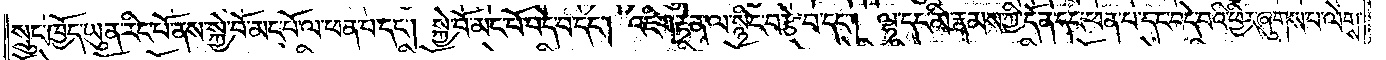སྲུང་ཁྱོད་ཡུན་རིང་པོ་ནས་སྐྱེ་བོ་མང་པོ་ལ་ཕན་པ་དང༌། སྐྱེ་བོ་མང་པོ་བདེ་བ་དང༌། འཇིག་རྟེན་ལ་སྙིང་བརྩེ་བ་དང༌། ལྷ་དང་མི་རྣམས་ཀྱི་དོན་དང་ཕན་པ་དང་བདེ་བའི་ཕྱིར་ཞུགས་པ་ལེགས་
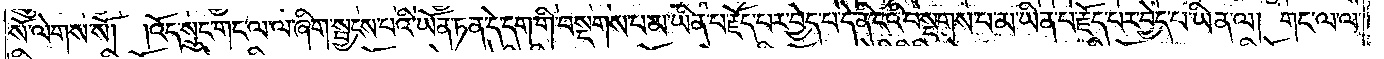སོ་ལེགས་སོ། །འོད་སྲུང་གང་ལ་ལ་ཞིག་སྦྱངས་པའི་ཡོན་ཏན་དེ་དག་གི་བསྔགས་པ་མ་ཡིན་པ་རྗོད་པར་བྱེད་པ་དེ་ནི་ངའི་བསྔགས་པ་མ་ཡིན་པ་རྗོད་པར་བྱེད་པ་ཡིན་ལ། གང་ལ་ལ་
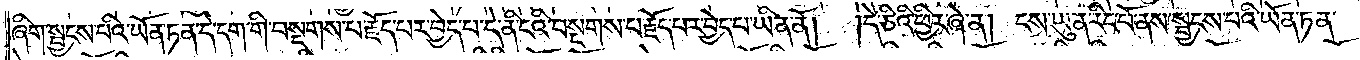ཞིག་སྦྱངས་པའི་ཡོན་ཏན་དེ་དག་གི་བསྔགས་པ་རྗོད་པར་བྱེད་པ་དེ་ནི་ངའི་བསྔགས་པ་རྗོད་པར་བྱེད་པ་ཡིན་ནོ། །དེ་ཅིའི་ཕྱིར་ཞེ་ན། ངས་ཡུན་རིང་པོ་ནས་སྦྱངས་པའི་ཡོན་ཏན་
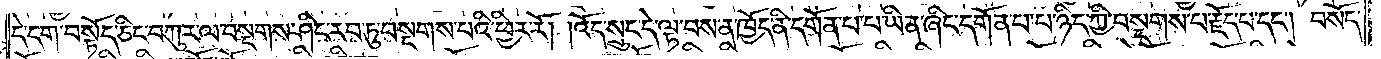དེ་དག་བསྟོད་ཅིང་བཀུར་ལ་བསྔགས་ཤིང་རབ་ཏུ་བསྔགས་པའི་ཕྱིར་རོ། །འོད་སྲུང་དེ་ལྟ་བས་ན་ཁྱོད་ནི་དགོན་པ་པ་ཡིན་ཞིང་དགོན་པ་པ་ཉིད་ཀྱི་བསྔགས་པ་རྗོད་པ་དང༌། བསོད་
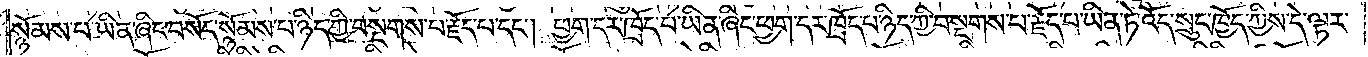སྙོམས་པ་ཡིན་ཞིང་བསོད་སྙོམས་པ་ཉིད་ཀྱི་བསྔགས་པ་རྗོད་པ་དང༌། ཕྱག་དར་ཁྲོད་པ་ཡིན་ཞིང་ཕྱག་དར་ཁྲོད་པ་ཉིད་ཀྱི་བསྔགས་པ་རྗོད་པ་ཡིན་ཏེ་འོད་སྲུང་ཁྱོད་ཀྱིས་དེ་ལྟར་
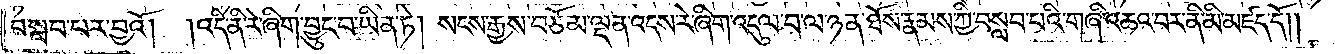བསླབ་པར་བྱའོ།   །འདི་ནི་རེ་ཞིག་བྱུང་བ་ཡིན་ཏེ། སངས་རྒྱས་བཅོམ་ལྡན་འདས་རེ་ཞིག་འདུལ་བ་ལ་ཉན་ཐོས་རྣམས་ཀྱི་བསླབ་པའི་གཞི་འཆའ་བར་ནི་མི་མཛད་དོ༎
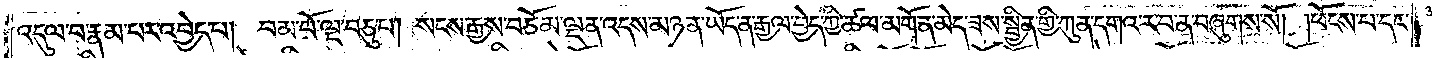འདུལ་བ་རྣམ་པར་འབྱེད་པ། བམ་པོ་ལྔ་བཅུ་པ། སངས་རྒྱས་བཅོམ་ལྡན་འདས་མཉན་ཡོད་ན་རྒྱལ་བྱེད་ཀྱི་ཚལ་མགོན་མེད་ཟས་སྦྱིན་གྱི་ཀུན་དགའ་ར་བ་ན་བཞུགས་སོ། །ཕོངས་པ་དང་
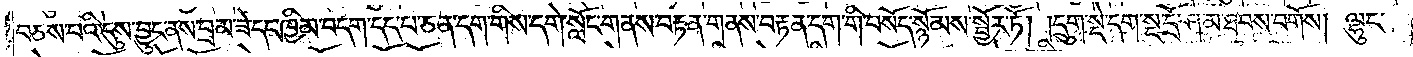བཅས་པའི་དུས་བྱུང་ནས་བྲམ་ཟེ་དང་ཁྱིམ་བདག་དད་པ་ཅན་དག་གིས་དགེ་སློང་གནས་བརྟན་གནས་བརྟན་དག་གི་བསོད་སྙོམས་སྦྱོར་ཏོ། །དྲུག་སྡེ་དག་སྔ་དྲོ་ཤམ་ཐབས་བགོས།  ལྷུང་
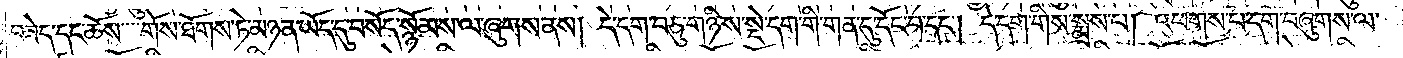བཟེད་དང་ཆོས་གོས་ཐོགས་ཏེ་མཉན་ཡོད་དུ་བསོད་སྙོམས་ལ་ཞུགས་ནས། དེ་དག་བཅུ་གཉིས་སྡེ་དག་གི་གན་དུ་དོང་བ་དང༌། དེ་དག་གིས་སྨྲས་པ། འཕགས་པ་དག་བཞུགས་ལ་
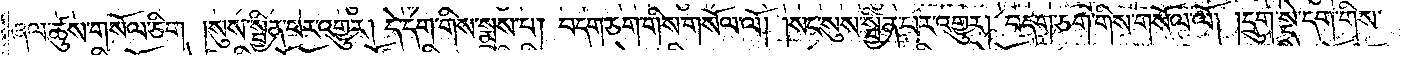ཞལ་ཚུས་གསོལ་ཅིག །སུས་སྦྱིན་པར་འགྱུར། དེ་དག་གིས་སྨྲས་པ། བདག་ཅག་གིས་གསོལ་ལོ། །སང་སུས་སྦྱིན་པར་འགྱུར། བདག་ཅག་གིས་གསོལ་ལོ། །དྲུག་སྡེ་དག་གིས་
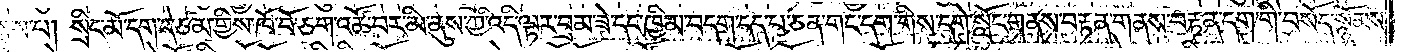སྨྲས་པ། སྲིང་མོ་དག་དེ་ཙམ་གྱིས་ཁོ་བོ་ཅག་འཚོ་བར་མི་ནུས་ཀྱི་འདི་ལྟར་བྲམ་ཟེ་དང་ཁྱིམ་བདག་དད་པ་ཅན་གང་དག་གིས་དགེ་སློང་གནས་བརྟན་གནས་བརྟན་དག་གི་བསོད་སྙོམས་
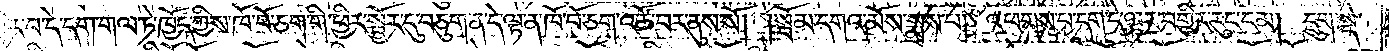སྦྱར་བ་དེ་དག་གལ་ཏེ་ཁྱོད་ཀྱིས་ཁོ་བོ་ཅག་གི་ཕྱིར་སྦྱོར་དུ་བཅུག་ན་དེ་ལྟ་ན་ཁོ་བོ་ཅག་འཚོ་བར་ནུས་སོ། །སྦོམ་དགའ་མོས་སྨྲས་པ། འཕགས་པ་དག་དེ་ལྟར་བགྱིར་རུང་ངམ། དྲུག་སྡེ་
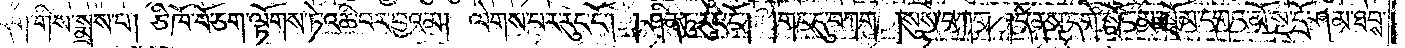དག་གིས་སྨྲས་པ། ཅི་ཁོ་བོ་ཅག་ལྟོགས་ཏེ་འཆི་བར་བྱའམ། ལེགས་པར་རུང་ངོ༌། །ཤིན་ཏུ་རུང་ངོ༌། །གང་དུ་བཀག །སུས་བཀག །དེ་ནས་དགེ་སློང་མ་སྦོམ་དགའ་མོ་སྔ་དྲོ་ཤམ་ཐབས་
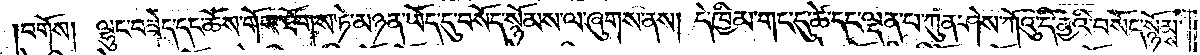བགོས། ལྷུང་བཟེད་དང་ཆོས་གོས་ཐོགས་ཏེ་མཉན་ཡོད་དུ་བསོད་སྙོམས་ལ་ཞུགས་ནས། དེ་ཁྱིམ་གང་དུ་ཚེ་དང་ལྡན་པ་ཀུན་ཤེས་ཀོའུ་འདི་ནྱའི་བསོད་སྙོམས་
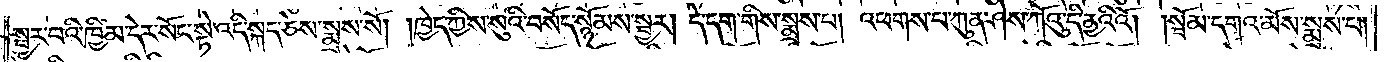སྦྱར་བའི་ཁྱིམ་དེར་སོང་སྟེ་འདི་སྐད་ཅེས་སྨྲས་སོ། །ཁྱེད་ཀྱིས་སུའི་བསོད་སྙོམས་སྦྱར། དེ་དག་གིས་སྨྲས་པ། འཕགས་པ་ཀུན་ཤེས་ཀོའུ་དི་ནྱའིའོ། །སྦོམ་དགའ་མོས་སྨྲས་པ།
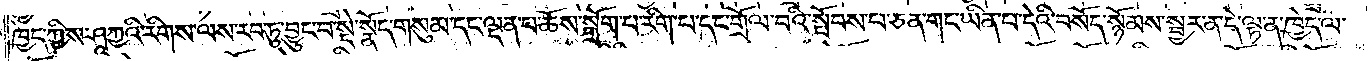ཁྱེད་ཀྱིས་ཤཱཀྱའི་རིགས་ལས་རབ་ཏུ་བྱུང་བ་སྡེ་སྣོད་གསུམ་དང་ལྡན་པ་ཆོས་སྒྲོག་པ་རིག་པ་དང་གྲོལ་བའི་སྤོབས་པ་ཅན་གང་ཡིན་པ་དེའི་བསོད་སྙོམས་སྦྱར་ན་དེ་ལྟ་ན་ཁྱེད་ལ་
